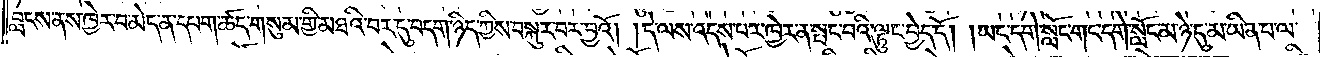བླངས་ནས་ཁྱེར་བ་མེད་ན་དཔག་ཚད་གསུམ་གྱི་མཐའི་བར་དུ་བདག་ཉིད་ཀྱིས་བསྐུར་བར་བྱའོ། །དེ་ལས་འདས་པར་ཁྱེར་ན་སྤང་བའི་ལྟུང་བྱེད་དོ། །ཡང་དགེ་སློང་གང་དགེ་སློང་མ་ཉེ་དུ་མ་ཡིན་པ་ལ་
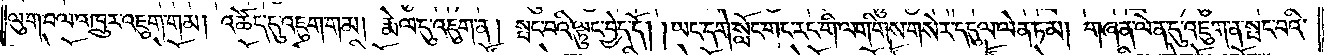ལུག་བལ་འཁྲུར་འཇུག་གམ། འཚེད་དུ་འཇུག་གམ། རྨེལ་དུ་འཇུག་ན། སྤང་བའི་ལྟུང་བྱེད་དོ། །ཡང་དགེ་སློང་གང་རང་གི་ལག་གིས་གསེར་དངུལ་ལེན་ཏམ། གཞན་ལེན་དུ་འཇུག་ན་སྤང་བའི་
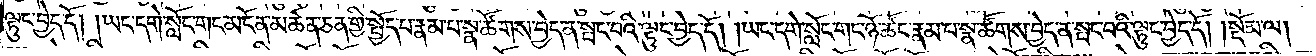ལྟུང་བྱེད་དོ། །ཡང་དགེ་སློང་གང་མངོན་མཚན་ཅན་གྱི་སྤྱོད་པ་རྣམ་པ་སྣ་ཚོགས་བྱེད་ན་སྤང་བའི་ལྟུང་བྱེད་དོ། །ཡང་དགེ་སློང་གང་ཉོ་ཚོང་རྣམ་པ་སྣ་ཚོགས་བྱེད་ན་སྤང་བའི་ལྟུང་བྱེད་དོ།    །སྡོམ་ལ།
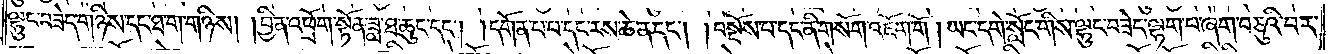ལྷུང་བཟེད་གཉིས་དང་ཐ་ག་གཉིས། །བྱིན་འཕྲོག་སྟོན་ཟླ་ཐ་ཆུང་དང༌། །དགོན་པ་པ་དང་རས་ཆེན་དང༌། །བསྔོས་པ་དང་ནི་གསོག་འཇོག་གོ །ཡང་དགེ་སློང་གིས་ལྷུང་བཟེད་ལྷག་པ་ཞག་བཅུའི་བར་
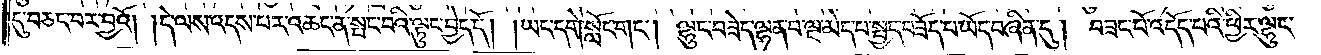དུ་བཅང་པར་བྱའོ། །དེ་ལས་འདས་པར་འཆང་ན་སྤང་བའི་ལྟུང་བྱེད་དོ། །ཡང་དགེ་སློང་གང༌། ལྷུང་བཟེད་ལྷན་བ་ལྔ་མེད་པ་སྤྱད་བཟོད་པ་ཡོད་བཞིན་དུ། བཟང་པོ་འདོད་པའི་ཕྱིར་ལྷུང་
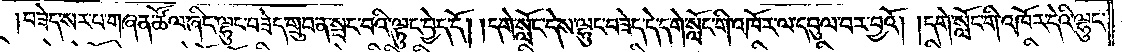བཟེད་སར་པ་གཞན་ཚོལ་ཞིང་ལྷུང་བཟེད་གྲུབ་ན་སྤང་བའི་ལྟུང་བྱེད་དོ། །དགེ་སློང་དེས་ལྷུང་བཟེད་དེ་དགེ་སློང་གི་འཁོར་ལ་དབུལ་བར་བྱའོ། །དགེ་སློང་གི་འཁོར་དེའི་ལྷུང་
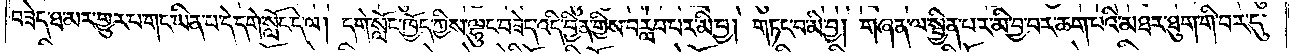བཟེད་ཐ་མར་གྱུར་པ་གང་ཡིན་པ་དེ་དགེ་སློང་དེ་ལ། དགེ་སློང་ཁྱོད་ཀྱིས་ལྷུང་བཟེད་འདི་བྱིན་གྱིས་བརླབ་པར་མི་བྱ། གཏང་བ་མི་བྱ། གཞན་ལ་སྦྱིན་པར་མི་བྱ་བར་ཆག་པའི་མཐར་ཐུག་གི་བར་དུ་
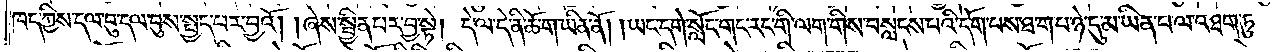ཁད་ཀྱིས་དལ་བུ་དལ་བུས་སྤྱད་པར་བྱའོ། །ཞེས་སྦྱིན་པར་བྱ་སྟེ། དེ་ལ་དེ་ནི་ཆོ་ག་ཡིན་ནོ། །ཡང་དགེ་སློང་གང་རང་གི་ལག་གིས་བསླངས་པའི་དོག་པས་ཐ་ག་པ་ཉེ་དུ་མ་ཡིན་པ་ལ་འཐག་ཏུ་
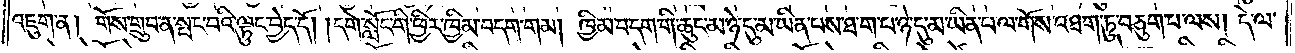འཇུག་ན། གོས་གྲུབ་ན་སྤང་བའི་ལྟུང་བྱེད་དོ། །དགེ་སློང་གི་ཕྱིར་ཁྱིམ་བདག་གམ། ཁྱིམ་བདག་གི་ཆུང་མ་ཉེ་དུ་མ་ཡིན་པས་ཐ་ག་པ་ཉེ་དུ་མ་ཡིན་པ་ལ་གོས་འཐག་ཏུ་བཅུག་པ་ལས། དེ་ལ་
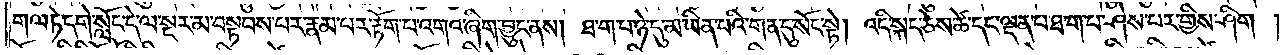གལ་ཏེ་དགེ་སློང་དེ་ལ་སྔར་མ་བསྟབས་པར་རྣམ་པར་རྟོག་པ་འགའ་ཞིག་བྱུང་ནས། ཐ་ག་པ་ཉེ་དུ་མ་ཡིན་པའི་གན་དུ་སོང་སྟེ། འདི་སྐད་ཅེས་ཚེ་དང་ལྡན་པ་ཐ་ག་པ་ཤེས་པར་གྱིས་ཤིག །
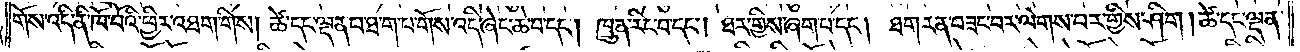གོས་འདི་ནི་ཁོ་བོའི་ཕྱིར་འཐག་གིས། ཚེ་དང་ལྡན་པ་ཐ་ག་པ་གོས་འདི་ཞེང་ཆེ་བ་དང༌། ཁྲུན་རིང་བ་དང༌། ཐར་གྱིས་ཞག་པ་དང༌། ཐག་རན་བཟང་བར་ལེགས་པར་གྱིས་ཤིག །ཚེ་དང་ལྡན་
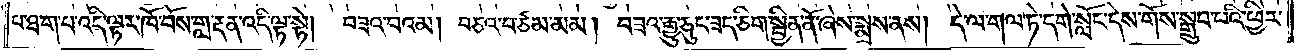པ་ཐ་ག་པ་འདི་ལྟར་ཁོ་བོས་གླ་རྔན་འདི་ལྟ་སྟེ། བཟའ་བའམ། བཅའ་བ་ཙམ་མམ། བཟའ་རྒྱུ་ཅུང་ཟད་ཅིག་སྦྱིན་ནོ་ཞེས་སྨྲས་ནས། དེ་ལ་གལ་ཏེ་དགེ་སློང་དེས་གོས་སྒྲུབ་པའི་ཕྱིར་
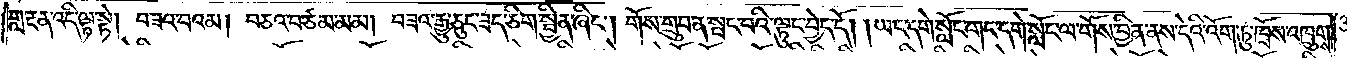གླ་རྔན་འདི་ལྟ་སྟེ། བཟའ་བའམ། བཅའ་བ་ཙམ་མམ། བཟའ་རྒྱུ་ཅུང་ཟད་ཅིག་སྦྱིན་ཞིང༌། གོས་གྲུབ་ན་སྤང་བའི་ལྟུང་བྱེད་དོ། །ཡང་དགེ་སློང་གང་དགེ་སློང་ལ་གོས་བྱིན་ནས་དེའི་འོག་ཏུ་ཁྲོས་འཁྲུགས་
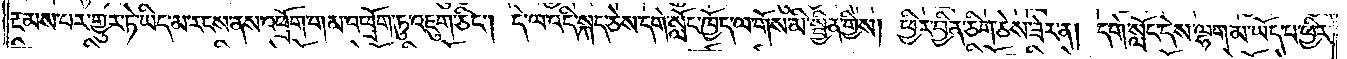རྔམས་པར་གྱུར་ཏེ་ཡིད་མ་རངས་ནས་འཕྲོག་གམ་འཕྲོག་ཏུ་འཇུག་ཅིང༌། དེ་ལ་འདི་སྐད་ཅེས་དགེ་སློང་ཁྱོད་ལ་གོས་མི་སྦྱིན་གྱིས། ཕྱིར་བྱིན་ཅིག་ཅེས་ཟེར་ན། དགེ་སློང་དེས་ལྷག་མ་ཡོད་པ་ཕྱིར་
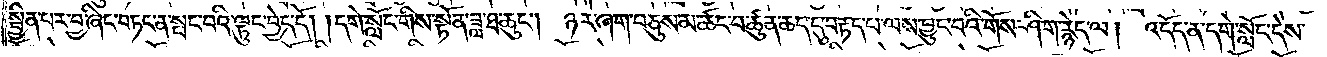སྦྱིན་པར་བྱ་ཞིང་བཏང་ན་སྤང་བའི་ལྟུང་བྱེད་དོ། །དགེ་སློང་གིས་སྟོན་ཟླ་ཐ་ཆུང༌། ཉར་ཞག་བཅུས་མ་ཚང་བ་ཚུན་ཆད་དུ་བརྟད་པ་ལས་བྱུང་བའི་གོས་ཤིག་རྙེད་ལ། འདོད་ན་དགེ་སློང་དེས་
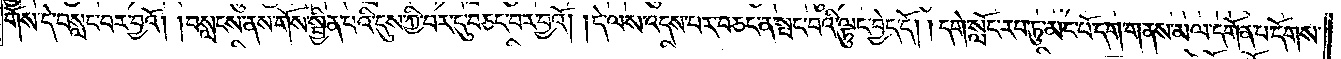གོས་དེ་བསླང་བར་བྱའོ། །བསླངས་ནས་གོས་སྦྱིན་པའི་དུས་ཀྱི་བར་དུ་བཅང་བར་བྱའོ། །དེ་ལས་འདས་པར་བཅང་ན་སྤང་བའི་ལྟུང་བྱེད་དོ། །དགེ་སློང་རབ་ཏུ་མང་པོ་དག་གནས་མལ་དགོན་པ་དོགས་
